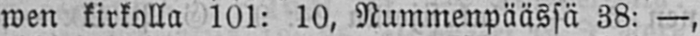wen kirkolla 101: 10, Nummenpäässä 38: —,
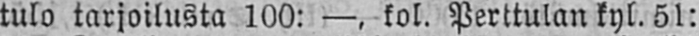tulo tarjoilusta 100: —, kol. Perttulan kyl. 51:
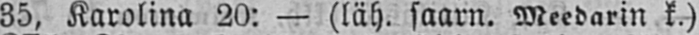35, Karolina 20: — (läh. saarn. Meedarin k.)
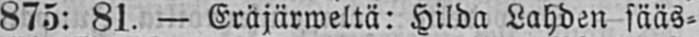875: 81. — Eräjärweltä: Hilda Lahden sääs-
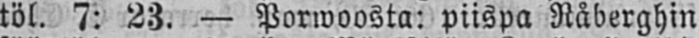töl. 7: 23. — Porwoosta: piispa Råberghin
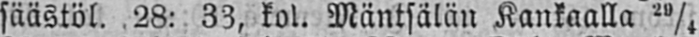säästöl. 28: 33, kol. Mäntsälän Kankaalla 29/4
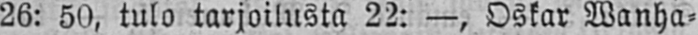26: 50, tulo tarjoilusta 22: —, Oskar Wanha-
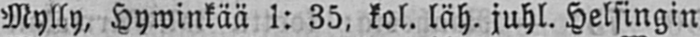Mylly, Hywinkää 1: 35, kol. läh. juhl. Helsingin
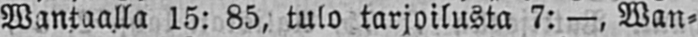Wantaalla 15: 85, tulo tarjoilusta 7: —, Wan-
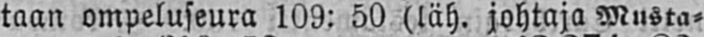taan ompeluseura 109: 50 (läh. johtaja Musta-
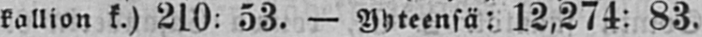kallion k.) 210: 53. — Yhteensä: 12,274: 83.
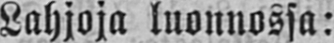Lahjoja luonnossa:
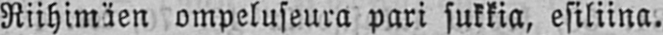Riihimäen ompeluseura pari sukkia, esiliina.
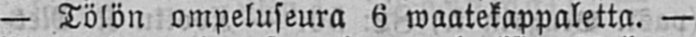— Tölön ompeluseura 6 waatekappaletta. —
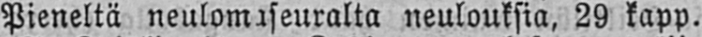Pieneltä neulomaseuralta neulouksia, 29 kapp.
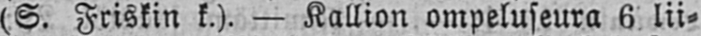(S. Friskin k.). — Kallion ompeluseura 6 lii-
